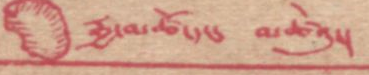རྒྱ་མཚོ་དང་མཚེའུ།
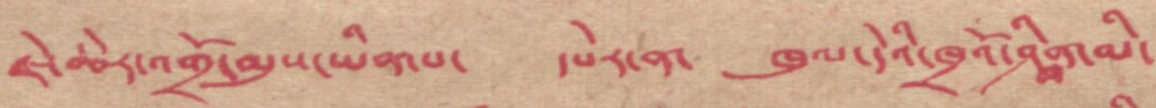ཇེ་ཆེར་འགྲོ་མུས་ཡིན་པ་ དཔེར་ན་ ཁུལ་དེའི་ཁྲོའོ་ཤྰིན་མི་
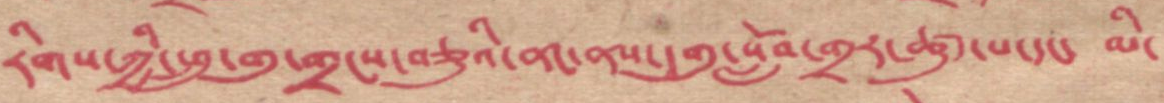རིགས་ཀྱི་ཕྲུ་གུ་གྲངས་བཅུའི་ནང་ནས་དགུ་སློབ་གྲར་ཚུད་པ་དང་ མི་
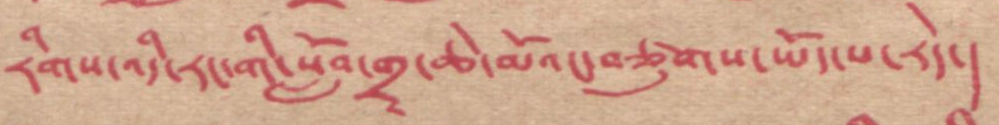རིགས་འདི་རང་གི་སློབ་གྲྭ་ཆེ་མོའང་བཙུགས་པ་ཡོད་པ་རེད།
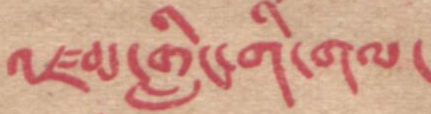འཛམ་གླིང་གི་གལ་
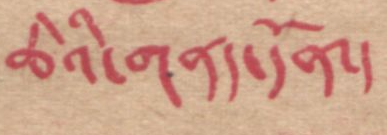ཆེའི་གནད་དོན།
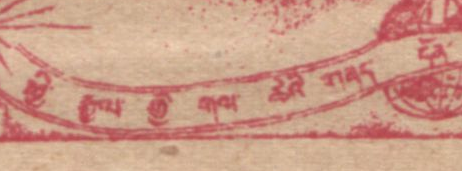ཕྱི་རྒྱལ་ཕྱི་གལ་ཆེའི་གནད་དོན་
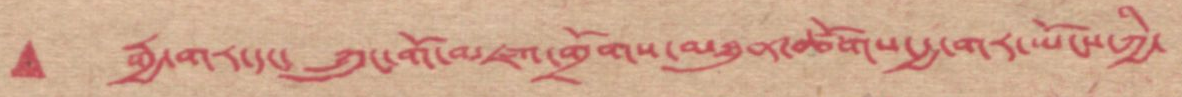▲ རྒྱ་གར་དང་ཀྲུང་གོ་མཛའ་གྲོགས་མཐུན་ཚོགས་རྒྱ་གར་ཡོང་ཀྱི་
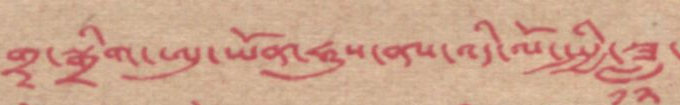གྲྭ་སྒྲིག་ཨུ་ཡོན་ཧུས་ནས་འདི་ལོ་སྤྱི་ཟླ་
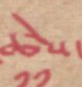ཚེས་
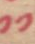༡༡
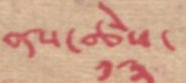ནས་ཚེས་
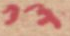༡༣
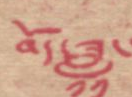བོད་ཟླ་
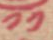༡༡
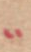་་་
